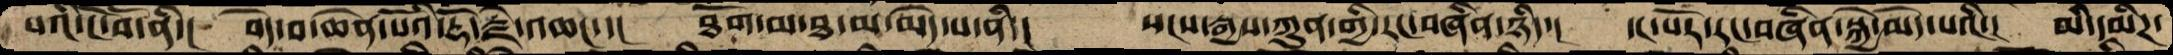པའི་ངོ་བོ་ནི་།  བདེ་བ་ཆེན་པོའི་རྡོ་རྗེ་འཆང་་།  ཐོག་མ་ཐ་མ་མེད་པ་ནི་།  སངས་རྒྱས་ཀུན་གྱི་རང་བཞིན་ཉིད་།  དང་པོར་རང་བཞིན་སྐྱེ་མེད་པའི་།  མི་དམིཌ་
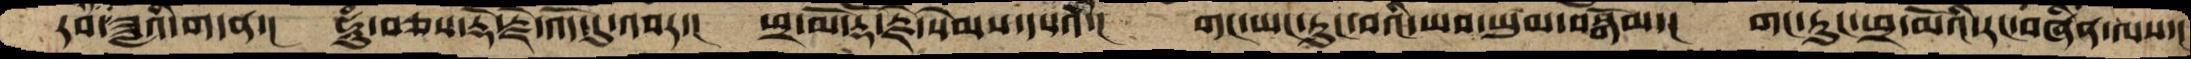རབ་ཟླའི་གདན་།  ཧཱུཾ་བཅས་རྡོ་རྗེ་འོད་དུ་འབར་།  ཕྲ་མོ་རྡོ་རྗེ་སེམས་དཔའཾ་།  གང་ཡང་རུང་བའི་ཡབ་ཡུམ་བསྒོམ་།  གང་རུང་ཕྲ་མོའི་རང་བཞིན་ལས་།
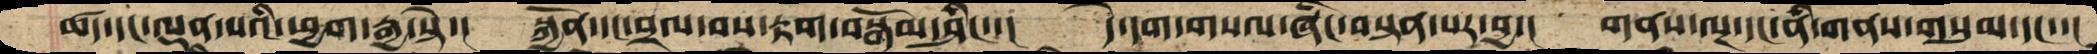ཚད་དང་ལྡན་པའི་ཕྱག་རྒྱ་སྟེ་།  སྐྱོན་དང་བྲལ་བས་རྟག་བསྒོམ་ཤིང་་།  དེ་དག་གསལ་ཞིང་བསྟན་པར་བྱ་།  གནས་ལྔ་དང་ནི་གནས་གསུམ་དང་་།
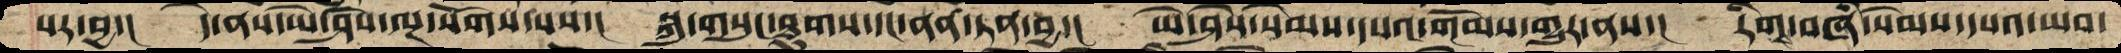པར་བྱ་།  དེ་ནས་ཡེ་ཤེས་ལྔ་སོགས་པས་།  སྐུ་གསུང་ཐུགས་དང་ནན་ཏན་བྱ་།  ཡེ་ཤེས་སེམས་དཔའ་གོམས་གྱུར་ནས་།  རིགས་བཞི་སེམས་དཔའ་ཡབ་
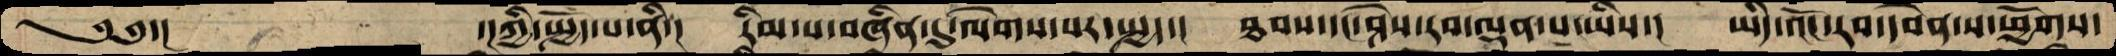༄༅་།    ་།ཀྱི་སྤྱོད་པ་ནི་།  རིམ་པ་བཞིན་དུ་ལེགས་པར་སྤྱད་།  ཐབས་དང་ཤེས་རབ་ལྡན་པ་ཡིས་།  ཡིད་འོང་རབ་དབེན་ས་ཕྱོགས་
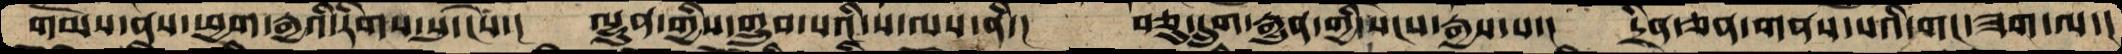གོམས་ནས་ཕྱག་རྒྱའི་རིགས་སུ་ངེས་།  ལྷུན་གྱིས་གྲུབ་པའི་ས་ལས་ནི་།  བཅུ་དྲུག་རྒྱུན་གྱི་སངས་རྒྱས་པ་།  དྲིན་ཅན་གནས་པའི་གང་ཟག་ལ་།
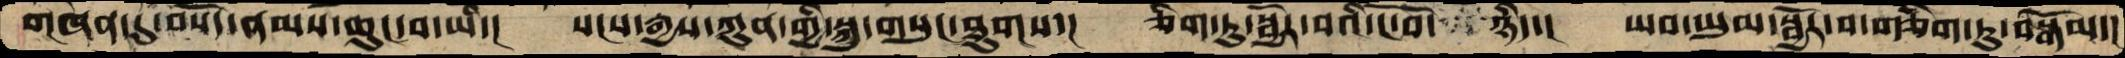གཞན་དུ་བསོད་ནམས་ཆུང་བ་ཡི་།  སངས་རྒྱས་ཀུན་གྱི་སྐུ་གསུང་ཐུགས་།  ཅིག་ཏུ་སྦྱོར་བའི་ངོ་བོ་   ཉིད་།  ཡབ་ཡུམ་སྦྱོར་བ་གཅིག་ཏུ་བསྒོམ་།
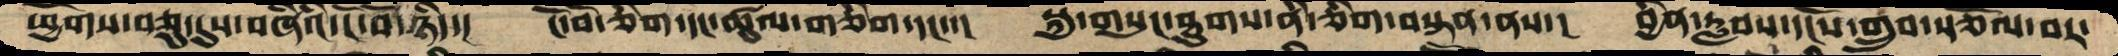ཕྱོགས་བཅུ་དུས་བཞིའི་ངོ་བོ་ཉིད་།    ངོ་བོ་ཅིག་དང་ཚུལ་གཅིག་དང་་།   སྐུ་གསུང་ཐུགས་ནི་ཅིག་བསྟན་ནས་།    བྱིན་རླབས་དངོས་གྲུབ་སྩོལ་བར་
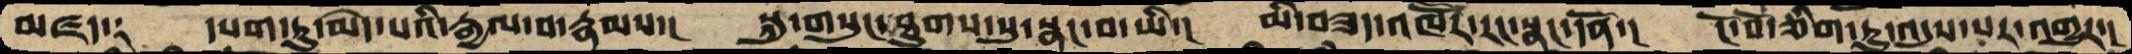མཛད༑   དཔག་ཏུ་མེད་པའི་རྒྱལ་བ་རྣམས་།   སྐུ་གསུང་ཐུགས་སུ་སྣང་བ་ཡི་།   མི་བཟད་འཁཽར་རང་སྣང་དོན་།  ངོ་བོ་ཅིག་ཏུ་འདུས་པར་འགྱུར་།
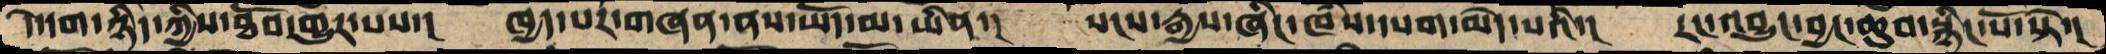དེ་དག་ཉིད་ཀྱིས་ཐོབ་གྱུར་པས་།  ཁྱད་པར་གཞན་ནས་ཡོད་མ་ཡིན་།   སངས་རྒྱས་ཞིང་ཁཾས་དཔག་མེད་པའི་།   རང་འབྱུང་བྱང་ཆུབ་སྙིང་པོ་སྟེ་།
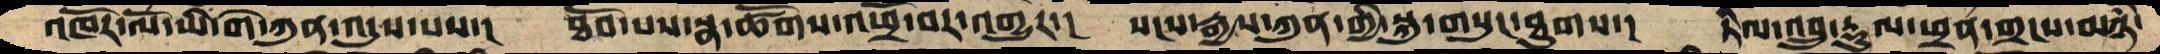འཁོར་ལོ་ཡི་གེ་ཀུན་འདུས་པས་།   ཐོབ་པས་སྣ་ཚོགས་འཕྲོ་བར་འགྱུར་།  སངས་རྒྱས་ཀུན་གྱི་སྐུ་གསུང་ཐུགས་།   ཏིལ་འབྲུ་རྡུལ་ཕྲན་གྲངས་མཉཾ་
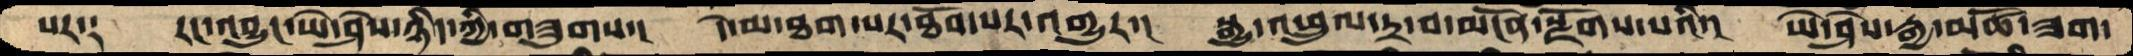པར༑  རང་འབྱུང་ཡེ་ཤེས་ཉིད་ཀྱི་གཟུགས་།   དེ་མ་ཐག་པར་ཐོབ་པར་འགྱུར་།   སྒྱུ་འཕྲུལ་དྲ་བ་མངོན་སྫོགས་པའི་།  ཡེ་ཤེས་རྒྱ་མཚོ་ཟག་
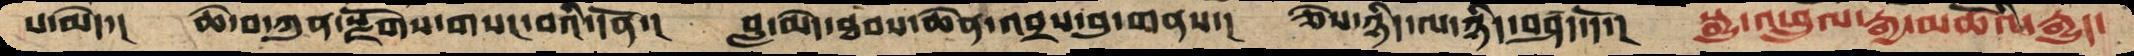པ་མེད་།  ཆེ་བ་ཀུན་སྫོགས་གསང་བའི་དོན་།  བླ་མེད་ཐབས་ཆེན་འབྲས་བུ་གནས་།  ཅེས་ཉིད་ལ་ཉིད་བཤད་དོ་།  སྒྱུ་འཕྲུལ་རྒྱ་མཚོའི་རྒྱུད་
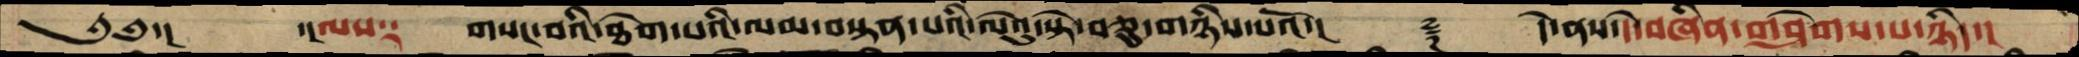༄༅་།       ་།ལས༑  གསང་བའི་ཐེག་པའི་ལམ་བསྟན་པའི་ལེའུ་སྟེ་བཅུ་གཉིས་པའོ་།     ࿑   དེ་ནས་དེ་བཞིན་གཤེགས་པ་ཉིད་།
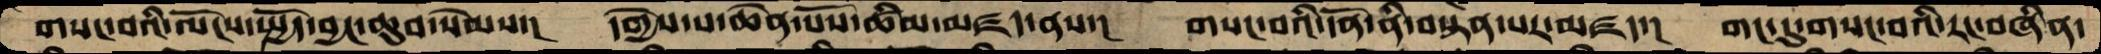གསང་བའི་ལོངས་སྤྱོད་བྱང་ཆུབ་སེམས་།  དགྱེས་པ་ཆེན་པོས་ཚིམ་མཛད་ནས་།  གསང་བའི་དོན་ནི་བསྟན་པར་མཛད་།  གང་དུ་གསང་བའི་རང་བཞིན་
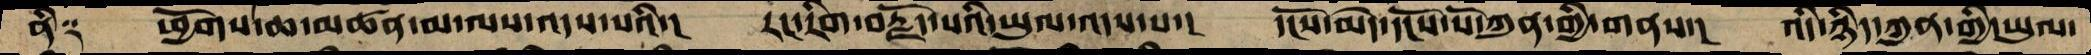ནི༑   ཕྱོགས་ཆ་མཚན་མ་ལས་འདས་པའི་།  རང་རིག་བརྗོད་པའི་ཡུལ་འདས་པ་།  དངོས་མེད་དངོས་པོ་ཀུན་གྱི་གནས་།  འདི་ཉིད་ཀུན་གྱི་ཡུལ་
